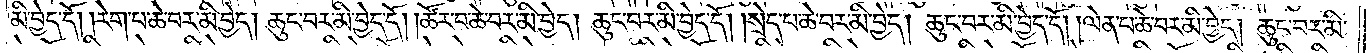མི་བྱེད་དོ། །རེག་པ་ཆེ་བར་མི་བྱེད། ཆུང་བར་མི་བྱེད་དོ། །ཚོར་བ་ཆེ་བར་མི་བྱེད། ཆུང་བར་མི་བྱེད་དོ། །སྲེད་པ་ཆེ་བར་མི་བྱེད། ཆུང་བར་མི་བྱེད་དོ། །ལེན་པ་ཆེ་བར་མི་བྱེད། ཆུང་བར་མི་
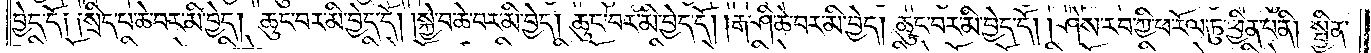བྱེད་དོ༑ ༑སྲིད་པ་ཆེ་བར་མི་བྱེད། ཆུང་བར་མི་བྱེད་དོ། །སྐྱེ་བ་ཆེ་བར་མི་བྱེད། ཆུང་བར་མི་བྱེད་དོ། །རྒ་ཤི་ཆེ་བར་མི་བྱེད། ཆུང་བར་མི་བྱེད་དོ། །ཤེས་རབ་ཀྱི་ཕ་རོལ་ཏུ་ཕྱིན་པ་ནི། སྦྱིན་
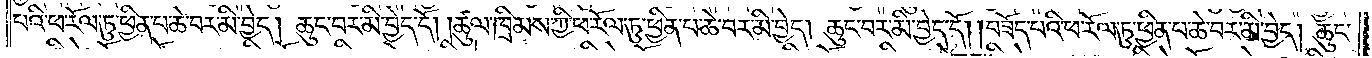པའི་ཕ་རོལ་ཏུ་ཕྱིན་པ་ཆེ་བར་མི་བྱེད། ཆུང་བར་མི་བྱེད་དོ། །ཚུལ་ཁྲིམས་ཀྱི་ཕ་རོལ་ཏུ་ཕྱིན་པ་ཆེ་བར་མི་བྱེད། ཆུང་བར་མི་བྱེད་དོ། །བཟོད་པའི་ཕ་རོལ་ཏུ་ཕྱིན་པ་ཆེ་བར་མི་བྱེད། ཆུང་
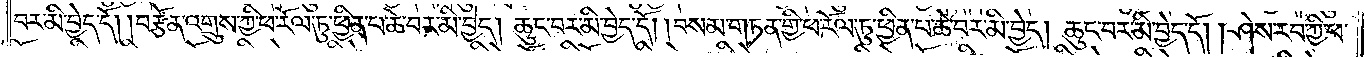བར་མི་བྱེད་དོ། །བརྩོན་འགྲུས་ཀྱི་ཕ་རོལ་ཏུ་ཕྱིན་པ་ཆེ་བར་མི་བྱེད། ཆུང་བར་མི་བྱེད་དོ། །བསམ་གཏན་གྱི་ཕ་རོལ་ཏུ་ཕྱིན་པ་ཆེ་བར་མི་བྱེད། ཆུང་བར་མི་བྱེད་དོ། །ཤེས་རབ་ཀྱི་ཕ་
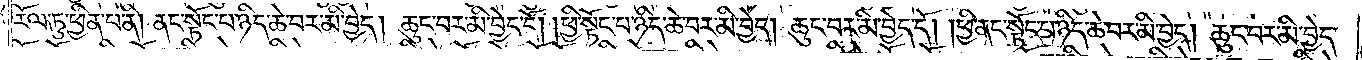རོལ་ཏུ་ཕྱིན་པ་ནི། ནང་སྟོང་པ་ཉིད་ཆེ་བར་མི་བྱེད། ཆུང་བར་མི་བྱེད་དོ། །ཕྱི་སྟོང་པ་ཉིད་ཆེ་བར་མི་བྱེད། ཆུང་བར་མི་བྱེད་དོ། །ཕྱི་ནང་སྟོང་པ་ཉིད་ཆེ་བར་མི་བྱེད། ཆུང་བར་མི་བྱེད་
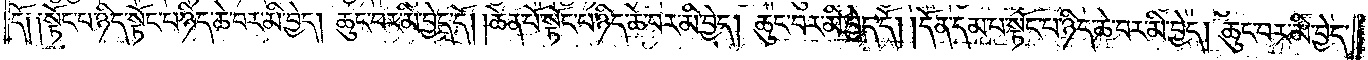དོ༑ ༑སྟོང་པ་ཉིད་སྟོང་པ་ཉིད་ཆེ་བར་མི་བྱེད། ཆུང་བར་མི་བྱེད་དོ། །ཆེན་པོ་སྟོང་པ་ཉིད་ཆེ་བར་མི་བྱེད། ཆུང་བར་མི་བྱེད་དོ། །དོན་དམ་པ་སྟོང་པ་ཉིད་ཆེ་བར་མི་བྱེད། ཆུང་བར་མི་བྱེད་
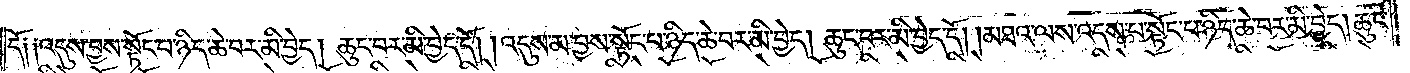དོ༑ ༑འདུས་བྱས་སྟོང་པ་ཉིད་ཆེ་བར་མི་བྱེད། ཆུང་བར་མི་བྱེད་དོ། །འདུས་མ་བྱས་སྟོང་པ་ཉིད་ཆེ་བར་མི་བྱེད། ཆུང་བར་མི་བྱེད་དོ། །མཐའ་ལས་འདས་པ་སྟོང་པ་ཉིད་ཆེ་བར་མི་བྱེད། ཆུང་
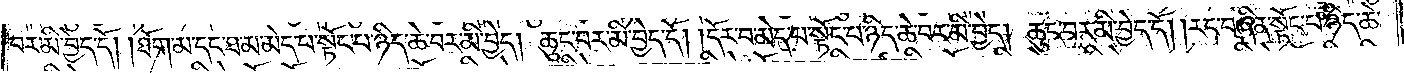བར་མི་བྱེད་དོ། །ཐོག་མ་དང་ཐ་མ་མེད་པ་སྟོང་པ་ཉིད་ཆེ་བར་མི་བྱེད། ཆུང་བར་མི་བྱེད་དོ། །དོར་བ་མེད་པ་སྟོང་པ་ཉིད་ཆེ་བར་མི་བྱེད། ཆུང་བར་མི་བྱེད་དོ། །རང་བཞིན་སྟོང་པ་ཉིད་ཆེ་
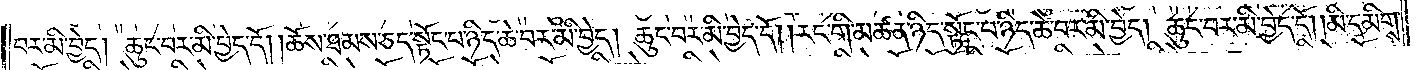བར་མི་བྱེད། ཆུང་བར་མི་བྱེད་དོ། །ཆོས་ཐམས་ཅད་སྟོང་པ་ཉིད་ཆེ་བར་མི་བྱེད། ཆུང་བར་མི་བྱེད་དོ། །རང་གི་མཚན་ཉིད་སྟོང་པ་ཉིད་ཆེ་བར་མི་བྱེད། ཆུང་བར་མི་བྱེད་དོ། །མི་དམིགས་
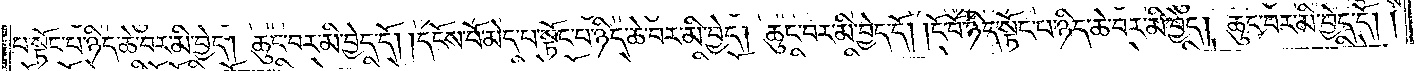པ་སྟོང་པ་ཉིད་ཆེ་བར་མི་བྱེད། ཆུང་བར་མི་བྱེད་དོ། །དངོས་པོ་མེད་པ་སྟོང་པ་ཉིད་ཆེ་བར་མི་བྱེད། ཆུང་བར་མི་བྱེད་དོ། །ངོ་བོ་ཉིད་སྟོང་པ་ཉིད་ཆེ་བར་མི་བྱེད། ཆུང་བར་མི་བྱེད་དོ། །
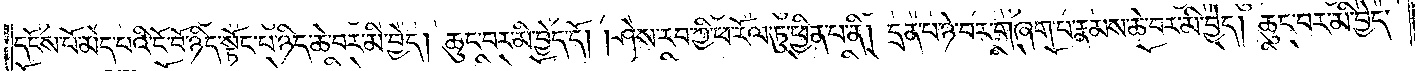དངོས་པོ་མེད་པའི་ངོ་བོ་ཉིད་སྟོང་པ་ཉིད་ཆེ་བར་མི་བྱེད། ཆུང་བར་མི་བྱེད་དོ། །ཤེས་རབ་ཀྱི་ཕ་རོལ་ཏུ་ཕྱིན་པ་ནི། དྲན་པ་ཉེ་བར་གཞག་པ་རྣམས་ཆེ་བར་མི་བྱེད། ཆུང་བར་མི་བྱེད་
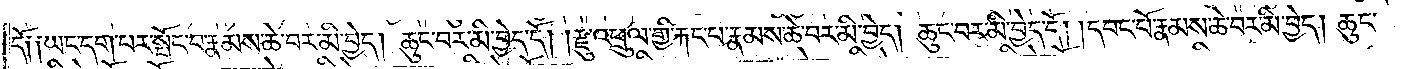དོ༑ ༑ཡང་དག་པར་སྤོང་པ་རྣམས་ཆེ་བར་མི་བྱེད། ཆུང་བར་མི་བྱེད་དོ། །རྫུ་འཕྲུལ་གྱི་རྐང་པ་རྣམས་ཆེ་བར་མི་བྱེད། ཆུང་བར་མི་བྱེད་དོ། །དབང་པོ་རྣམས་ཆེ་བར་མི་བྱེད། ཆུང་
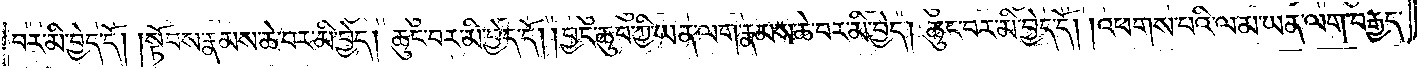བར་མི་བྱེད་དོ། །སྟོབས་རྣམས་ཆེ་བར་མི་བྱེད། ཆུང་བར་མི་བྱེད་དོ། །བྱང་ཆུབ་ཀྱི་ཡན་ལག་རྣམས་ཆེ་བར་མི་བྱེད། ཆུང་བར་མི་བྱེད་དོ། །འཕགས་པའི་ལམ་ཡན་ལག་བརྒྱད་
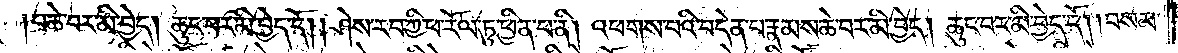པ་ཆེ་བར་མི་བྱེད། ཆུང་བར་མི་བྱེད་དོ། །ཤེས་རབ་ཀྱི་ཕ་རོལ་ཏུ་ཕྱིན་པ་ནི། འཕགས་པའི་བདེན་པ་རྣམས་ཆེ་བར་མི་བྱེད། ཆུང་བར་མི་བྱེད་དོ། །བསམ་
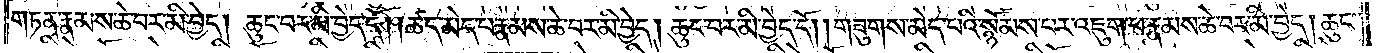གཏན་རྣམས་ཆེ་བར་མི་བྱེད། ཆུང་བར་མི་བྱེད་དོ། །ཚད་མེད་པ་རྣམས་ཆེ་བར་མི་བྱེད། ཆུང་བར་མི་བྱེད་དོ། གཟུགས་མེད་པའི་སྙོམས་པར་འཇུག་པ་རྣམས་ཆེ་བར་མི་བྱེད། ཆུང་
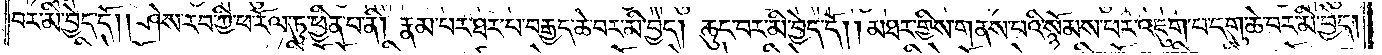བར་མི་བྱེད་དོ། །ཤེས་རབ་ཀྱི་ཕ་རོལ་ཏུ་ཕྱིན་པ་ནི། རྣམ་པར་ཐར་པ་བརྒྱད་ཆེ་བར་མི་བྱེད། ཆུང་བར་མི་བྱེད་དོ། །མཐར་གྱིས་གནས་པའི་སྙོམས་པར་འཇུག་པ་དགུ་ཆེ་བར་མི་བྱེད།
